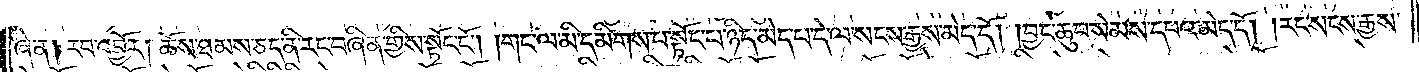ཞེ་ན། རབ་འབྱོར། ཆོས་ཐམས་ཅད་ནི་རང་བཞིན་གྱིས་སྟོང་ངོ༌། །གང་ལ་མི་དམིགས་པ་སྟོང་པ་ཉིད་མེད་པ་དེ་ལ་སངས་རྒྱས་མེད་དོ། །བྱང་ཆུབ་སེམས་དཔའ་མེད་དོ། །རང་སངས་རྒྱས་
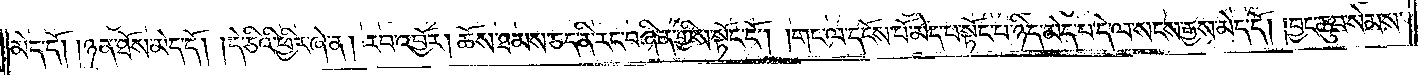མེད་དོ། །ཉན་ཐོས་མེད་དོ། །དེ་ཅིའི་ཕྱིར་ཞེ་ན། རབ་འབྱོར། ཆོས་ཐམས་ཅད་ནི་རང་བཞིན་གྱིས་སྟོང་ངོ༌། །གང་ལ་དངོས་པོ་མེད་པ་སྟོང་པ་ཉིད་མེད་པ་དེ་ལ་སངས་རྒྱས་མེད་དོ། །བྱང་ཆུབ་སེམས་
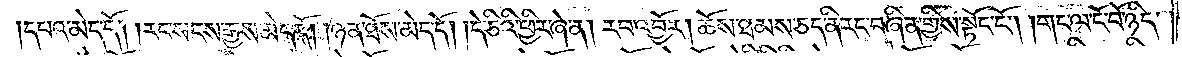དཔའ་མེད་དོ། །རང་སངས་རྒྱས་མེད་དོ། །ཉན་ཐོས་མེད་དོ། །དེ་ཅིའི་ཕྱིར་ཞེ་ན། རབ་འབྱོར། ཆོས་ཐམས་ཅད་ནི་རང་བཞིན་གྱིས་སྟོང་ངོ༌། །གང་ལ་ངོ་བོ་ཉིད་
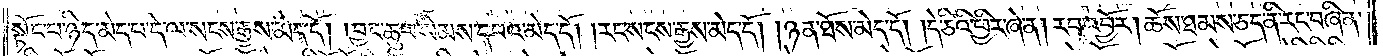སྟོང་པ་ཉིད་མེད་པ་དེ་ལ་སངས་རྒྱས་མེད་དོ། །བྱང་ཆུབ་སེམས་དཔའ་མེད་དོ། །རང་སངས་རྒྱས་མེད་དོ། །ཉན་ཐོས་མེད་དོ། །དེ་ཅིའི་ཕྱིར་ཞེ་ན། རབ་འབྱོར། ཆོས་ཐམས་ཅད་ནི་རང་བཞིན་
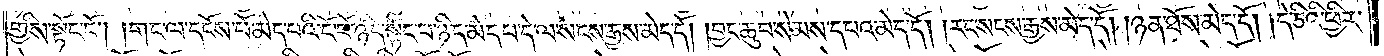གྱིས་སྟོང་ངོ༌། །གང་ལ་དངོས་པོ་མེད་པའི་ངོ་བོ་ཉིད་སྟོང་པ་ཉིད་མེད་པ་དེ་ལ་སངས་རྒྱས་མེད་དོ། །བྱང་ཆུབ་སེམས་དཔའ་མེད་དོ། །རང་སངས་རྒྱས་མེད་དོ། །ཉན་ཐོས་མེད་དོ། །དེ་ཅིའི་ཕྱིར་
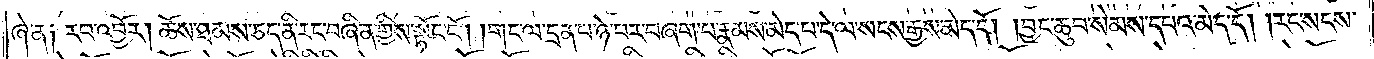ཞེ་ན༑ རབ་འབྱོར། ཆོས་ཐམས་ཅད་ནི་རང་བཞིན་གྱིས་སྟོང་ངོ༌། །གང་ལ་དྲན་པ་ཉེ་བར་བཞག་པ་རྣམས་མེད་པ་དེ་ལ་སངས་རྒྱས་མེད་དོ། །བྱང་ཆུབ་སེམས་དཔའ་མེད་དོ། །རང་སངས་
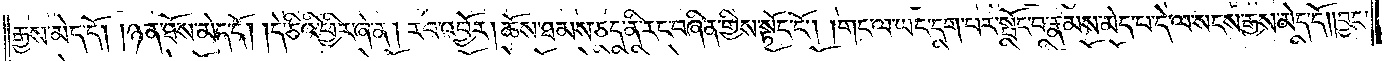རྒྱས་མེད་དོ། །ཉན་ཐོས་མེད་དོ། །དེ་ཅིའི་ཕྱིར་ཞེ་ན། རབ་འབྱོར། ཆོས་ཐམས་ཅད་ནི་རང་བཞིན་གྱིས་སྟོང་ངོ༌། །གང་ལ་ཡང་དག་པར་སྤོང་བ་རྣམས་མེད་པ་དེ་ལ་སངས་རྒྱས་མེད་དོ། །བྱང་
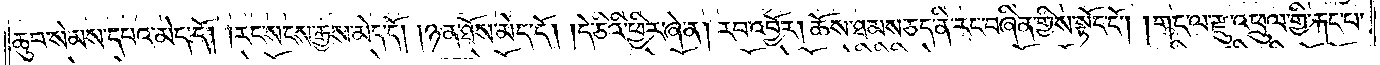ཆུབ་སེམས་དཔའ་མེད་དོ། །རང་སངས་རྒྱས་མེད་དོ། །ཉན་ཐོས་མེད་དོ། །དེ་ཅིའི་ཕྱིར་ཞེ་ན། རབ་འབྱོར། ཆོས་ཐམས་ཅད་ནི་རང་བཞིན་གྱིས་སྟོང་ངོ༌། །གང་ལ་རྫུ་འཕྲུལ་གྱི་རྐང་པ་
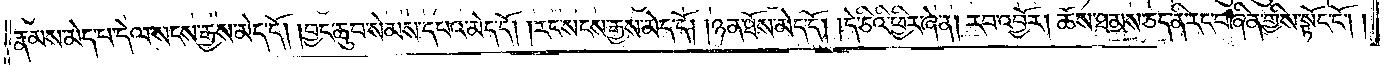རྣམས་མེད་པ་དེ་ལ་སངས་རྒྱས་མེད་དོ། །བྱང་ཆུབ་སེམས་དཔའ་མེད་དོ། །རང་སངས་རྒྱས་མེད་དོ། །ཉན་ཐོས་མེད་དོ། །དེ་ཅིའི་ཕྱིར་ཞེ་ན། རབ་འབྱོར། ཆོས་ཐམས་ཅད་ནི་རང་བཞིན་གྱིས་སྟོང་ངོ༌། །
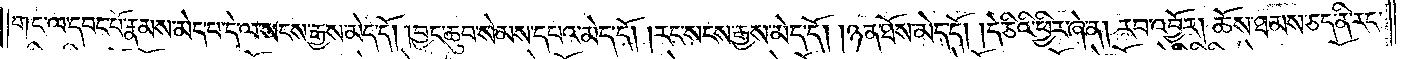གང་ལ་དབང་པོ་རྣམས་མེད་པ་དེ་ལ་སངས་རྒྱས་མེད་དོ། །བྱང་ཆུབ་སེམས་དཔའ་མེད་དོ། །རང་སངས་རྒྱས་མེད་དོ། །ཉན་ཐོས་མེད་དོ། །དེ་ཅིའི་ཕྱིར་ཞེ་ན། རབ་འབྱོར། ཆོས་ཐམས་ཅད་ནི་རང་
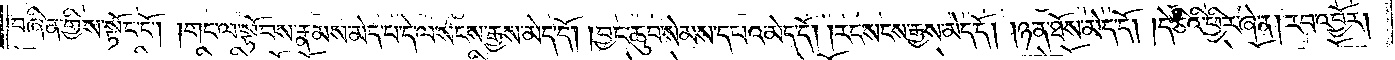བཞིན་གྱིས་སྟོང་ངོ༌། །གང་ལ་སྟོབས་རྣམས་མེད་པ་དེ་ལ་སངས་རྒྱས་མེད་དོ། །བྱང་ཆུབ་སེམས་དཔའ་མེད་དོ། །རང་སངས་རྒྱས་མེད་དོ། །ཉན་ཐོས་མེད་དོ། །དེ་ཅིའི་ཕྱིར་ཞེ་ན། རབ་འབྱོར།
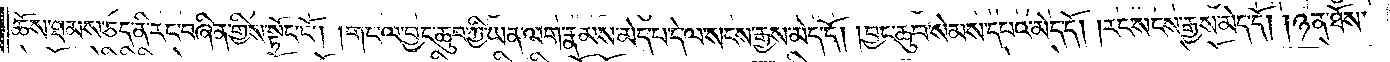ཆོས་ཐམས་ཅད་ནི་རང་བཞིན་གྱིས་སྟོང་ངོ༌། །གང་ལ་བྱང་ཆུབ་ཀྱི་ཡན་ལག་རྣམས་མེད་པ་དེ་ལ་སངས་རྒྱས་མེད་དོ། །བྱང་ཆུབ་སེམས་དཔའ་མེད་དོ། །རང་སངས་རྒྱས་མེད་དོ། །ཉན་ཐོས་
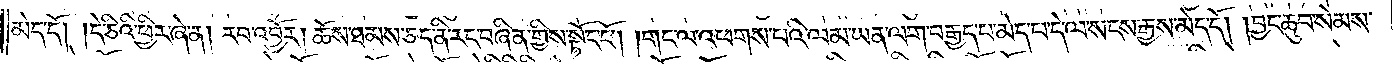མེད་དོ། །དེ་ཅིའི་ཕྱིར་ཞེ་ན། རབ་འབྱོར། ཆོས་ཐམས་ཅད་ནི་རང་བཞིན་གྱིས་སྟོང་ངོ༌། །གང་ལ་འཕགས་པའི་ལམ་ཡན་ལག་བརྒྱད་པ་མེད་པ་དེ་ལ་སངས་རྒྱས་མེད་དོ། །བྱང་ཆུབ་སེམས་
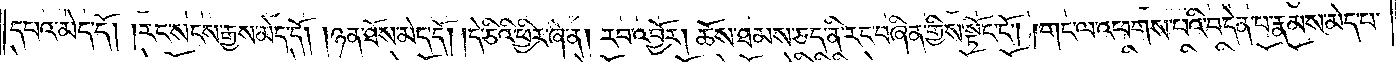དཔའ་མེད་དོ། །རང་སངས་རྒྱས་མེད་དོ། །ཉན་ཐོས་མེད་དོ། །དེ་ཅིའི་ཕྱིར་ཞེ་ན། རབ་འབྱོར། ཆོས་ཐམས་ཅད་ནི་རང་བཞིན་གྱིས་སྟོང་ངོ༌། །གང་ལ་འཕགས་པའི་བདེན་པ་རྣམས་མེད་པ་
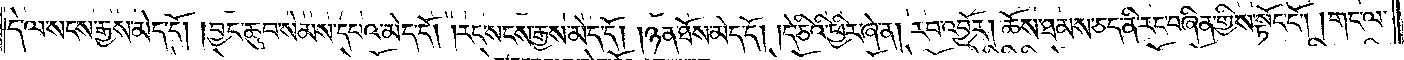དེ་ལ་སངས་རྒྱས་མེད་དོ། །བྱང་ཆུབ་སེམས་དཔའ་མེད་དོ། །རང་སངས་རྒྱས་མེད་དོ། །ཉན་ཐོས་མེད་དོ། །དེ་ཅིའི་ཕྱིར་ཞེ་ན། རབ་འབྱོར། ཆོས་ཐམས་ཅད་ནི་རང་བཞིན་གྱིས་སྟོང་ངོ༌། །གང་ལ་
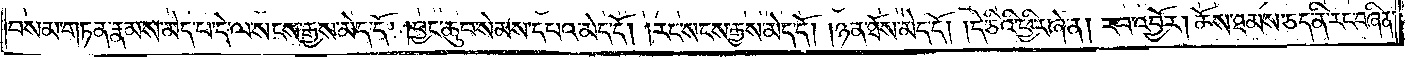བསམ་གཏན་རྣམས་མེད་པ་དེ་ལ་སངས་རྒྱས་མེད་དོ། །བྱང་ཆུབ་སེམས་དཔའ་མེད་དོ། །རང་སངས་རྒྱས་མེད་དོ། །ཉན་ཐོས་མེད་དོ། །དེ་ཅིའི་ཕྱིར་ཞེ་ན། རབ་འབྱོར། ཆོས་ཐམས་ཅད་ནི་རང་བཞིན་
